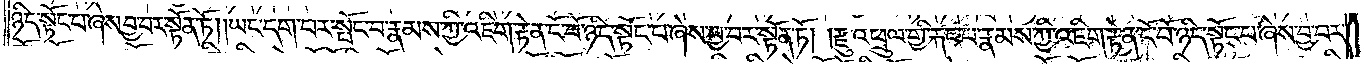ཉིད་སྟོང་པ་ཞེས་བྱ་བར་སྟོན་ཏོ། །ཡང་དག་པར་སྤོང་པ་རྣམས་ཀྱི་འཇིག་རྟེན་ངོ་བོ་ཉིད་སྟོང་པ་ཞེས་བྱ་བར་སྟོན་ཏོ། །རྫུ་འཕྲུལ་གྱི་རྐང་པ་རྣམས་ཀྱི་འཇིག་རྟེན་ངོ་བོ་ཉིད་སྟོང་པ་ཞེས་བྱ་བར་
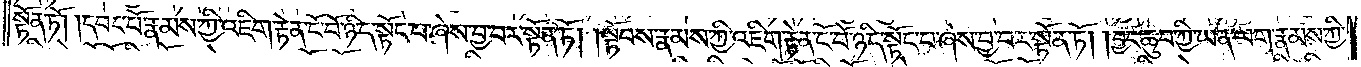སྟོན་ཏོ། །དབང་པོ་རྣམས་ཀྱི་འཇིག་རྟེན་ངོ་བོ་ཉིད་སྟོང་པ་ཞེས་བྱ་བར་སྟོན་ཏོ། །སྟོབས་རྣམས་ཀྱི་འཇིག་རྟེན་ངོ་བོ་ཉིད་སྟོང་པ་ཞེས་བྱ་བར་སྟོན་ཏོ། །བྱང་ཆུབ་ཀྱི་ཡན་ལག་རྣམས་ཀྱི་
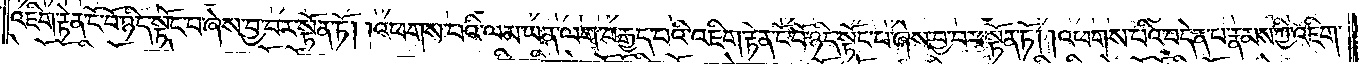འཇིག་རྟེན་ངོ་བོ་ཉིད་སྟོང་པ་ཞེས་བྱ་བར་སྟོན་ཏོ། །འཕགས་པའི་ལམ་ཡན་ལག་བརྒྱད་པའི་འཇིག་རྟེན་ངོ་བོ་ཉིད་སྟོང་པ་ཞེས་བྱ་བར་སྟོན་ཏོ། །འཕགས་པའི་བདེན་པ་རྣམས་ཀྱི་འཇིག་
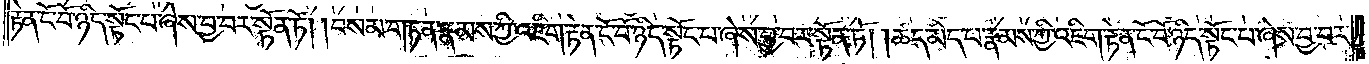རྟེན་ངོ་བོ་ཉིད་སྟོང་པ་ཞེས་བྱ་བར་སྟོན་ཏོ། །བསམ་གཏན་རྣམས་ཀྱི་འཇིག་རྟེན་ངོ་བོ་ཉིད་སྟོང་པ་ཞེས་བྱ་བར་སྟོན་ཏོ། །ཚད་མེད་པ་རྣམས་ཀྱི་འཇིག་རྟེན་ངོ་བོ་ཉིད་སྟོང་པ་ཞེས་བྱ་བར་
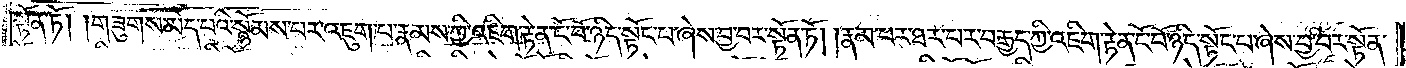སྟོན་ཏོ། །གཟུགས་མེད་པའི་སྙོམས་པར་འཇུག་པ་རྣམས་ཀྱི་འཇིག་རྟེན་ངོ་བོ་ཉིད་སྟོང་པ་ཞེས་བྱ་བར་སྟོན་ཏོ། །རྣམ་པར་ཐར་པ་བརྒྱད་ཀྱི་འཇིག་རྟེན་ངོ་བོ་ཉིད་སྟོང་པ་ཞེས་བྱ་བར་སྟོན་
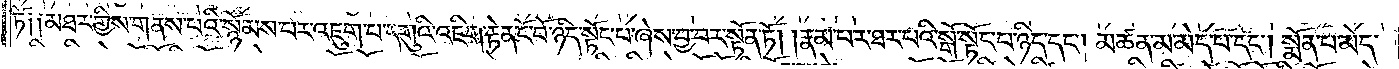ཏོ༑ ༑མཐར་གྱིས་གནས་པའི་སྙོམས་པར་འཇུག་པ་དགུའི་འཇིག་རྟེན་ངོ་བོ་ཉིད་སྟོང་པ་ཞེས་བྱ་བར་སྟོན་ཏོ། །རྣམ་པར་ཐར་པའི་སྒོ་སྟོང་པ་ཉིད་དང༌། མཚན་མ་མེད་པ་དང༌། སྨོན་པ་མེད་
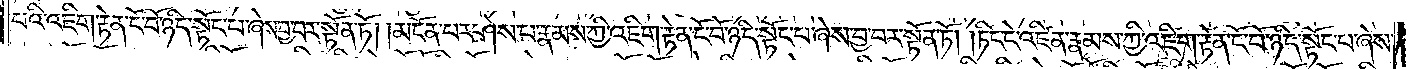པའི་འཇིག་རྟེན་ངོ་བོ་ཉིད་སྟོང་པ་ཞེས་བྱ་བར་སྟོན་ཏོ། །མངོན་པར་ཤེས་པ་རྣམས་ཀྱི་འཇིག་རྟེན་ངོ་བོ་ཉིད་སྟོང་པ་ཞེས་བྱ་བར་སྟོན་ཏོ། །ཏིང་ངེ་འཛིན་རྣམས་ཀྱི་འཇིག་རྟེན་ངོ་བོ་ཉིད་སྟོང་པ་ཞེས་
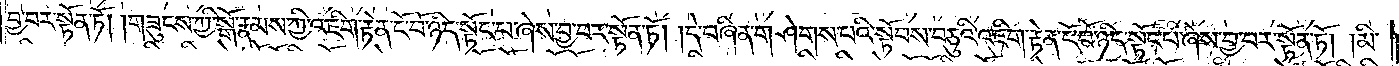བྱ་བར་སྟོན་ཏོ། །གཟུངས་ཀྱི་སྒོ་རྣམས་ཀྱི་འཇིག་རྟེན་ངོ་བོ་ཉིད་སྟོང་པ་ཞེས་བྱ་བར་སྟོན་ཏོ། །དེ་བཞིན་གཤེགས་པའི་སྟོབས་བཅུའི་འཇིག་རྟེན་ངོ་བོ་ཉིད་སྟོང་པ་ཞེས་བྱ་བར་སྟོན་ཏོ། །མི་
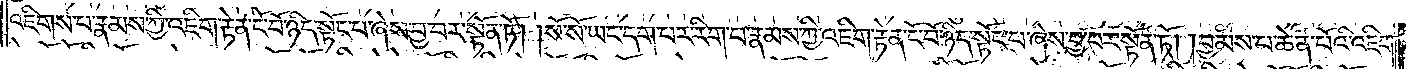འཇིགས་པ་རྣམས་ཀྱི་འཇིག་རྟེན་ངོ་བོ་ཉིད་སྟོང་པ་ཞེས་བྱ་བར་སྟོན་ཏོ། །སོ་སོ་ཡང་དག་པར་རིག་པ་རྣམས་ཀྱི་འཇིག་རྟེན་ངོ་བོ་ཉིད་སྟོང་པ་ཞེས་བྱ་བར་སྟོན་ཏོ། །བྱམས་པ་ཆེན་པོའི་འཇིག་
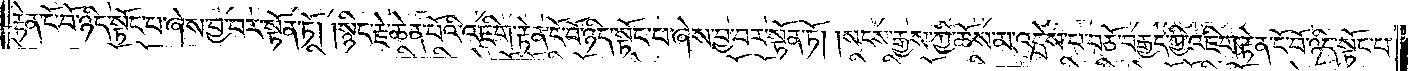རྟེན་ངོ་བོ་ཉིད་སྟོང་པ་ཞེས་བྱ་བར་སྟོན་ཏོ། །སྙིང་རྗེ་ཆེན་པོའི་འཇིག་རྟེན་ངོ་བོ་ཉིད་སྟོང་པ་ཞེས་བྱ་བར་སྟོན་ཏོ། །སངས་རྒྱས་ཀྱི་ཆོས་མ་འདྲེས་པ་བཅོ་བརྒྱད་ཀྱི་འཇིག་རྟེན་ངོ་བོ་ཉིད་སྟོང་པ་
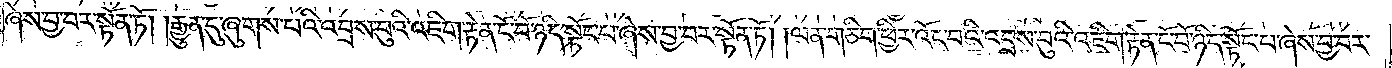ཞེས་བྱ་བར་སྟོན་ཏོ། །རྒྱུན་ཏུ་ཞུགས་པའི་འབྲས་བུའི་འཇིག་རྟེན་ངོ་བོ་ཉིད་སྟོང་པ་ཞེས་བྱ་བར་སྟོན་ཏོ། །ལན་གཅིག་ཕྱིར་འོང་བའི་འབྲས་བུའི་འཇིག་རྟེན་ངོ་བོ་ཉིད་སྟོང་པ་ཞེས་བྱ་བར་
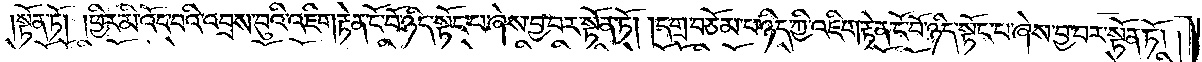སྟོན་ཏོ། །ཕྱིར་མི་འོང་བའི་འབྲས་བུའི་འཇིག་རྟེན་ངོ་བོ་ཉིད་སྟོང་པ་ཞེས་བྱ་བར་སྟོན་ཏོ། །དགྲ་བཅོམ་པ་ཉིད་ཀྱི་འཇིག་རྟེན་ངོ་བོ་ཉིད་སྟོང་པ་ཞེས་བྱ་བར་སྟོན་ཏོ། །
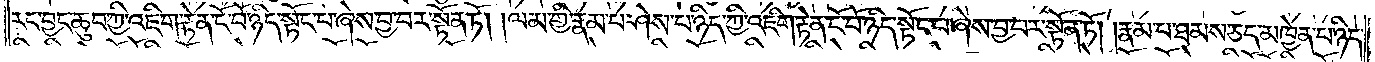རང་བྱང་ཆུབ་ཀྱི་འཇིག་རྟེན་ངོ་བོ་ཉིད་སྟོང་པ་ཞེས་བྱ་བར་སྟོན་ཏོ། །ལམ་གྱི་རྣམ་པ་ཤེས་པ་ཉིད་ཀྱི་འཇིག་རྟེན་ངོ་བོ་ཉིད་སྟོང་པ་ཞེས་བྱ་བར་སྟོན་ཏོ། །རྣམ་པ་ཐམས་ཅད་མཁྱེན་པ་ཉིད་
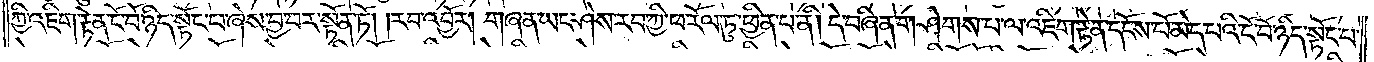ཀྱི་འཇིག་རྟེན་ངོ་བོ་ཉིད་སྟོང་པ་ཞེས་བྱ་བར་སྟོན་ཏོ། །རབ་འབྱོར། གཞན་ཡང་ཤེས་རབ་ཀྱི་ཕ་རོལ་ཏུ་ཕྱིན་པ་ནི། དེ་བཞིན་གཤེགས་པ་ལ་འཇིག་རྟེན་དངོས་པོ་མེད་པའི་ངོ་བོ་ཉིད་སྟོང་པ་
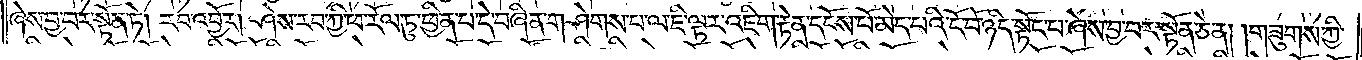ཞེས་བྱ་བར་སྟོན་ཏེ། རབ་འབྱོར། ཤེས་རབ་ཀྱི་ཕ་རོལ་ཏུ་ཕྱིན་པ་དེ་བཞིན་གཤེགས་པ་ལ་ཇི་ལྟར་འཇིག་རྟེན་དངོས་པོ་མེད་པའི་ངོ་བོ་ཉིད་སྟོང་པ་ཞེས་བྱ་བར་སྟོན་ཅེ་ན། གཟུགས་ཀྱི་
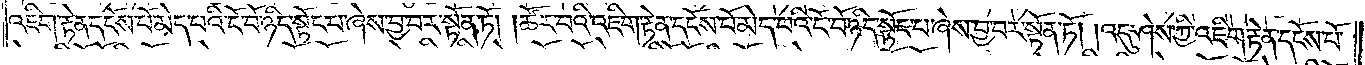འཇིག་རྟེན་དངོས་པོ་མེད་པའི་ངོ་བོ་ཉིད་སྟོང་པ་ཞེས་བྱ་བར་སྟོན་ཏོ། །ཚོར་བའི་འཇིག་རྟེན་དངོས་པོ་མེད་པའི་ངོ་བོ་ཉིད་སྟོང་པ་ཞེས་བྱ་བར་སྟོན་ཏོ། །འདུ་ཤེས་ཀྱི་འཇིག་རྟེན་དངོས་པོ་
